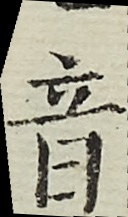音
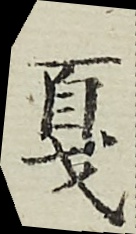戛
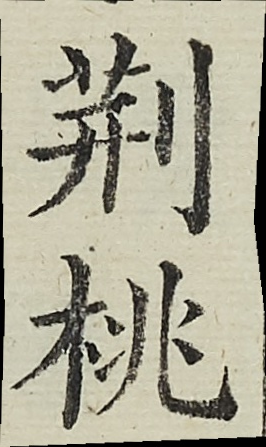荊桃
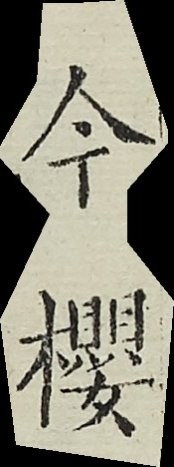今櫻
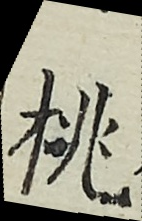桃
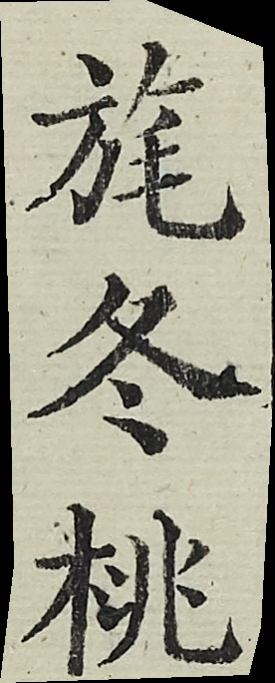旄冬桃
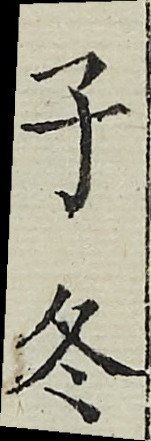子冬
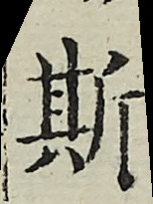斯
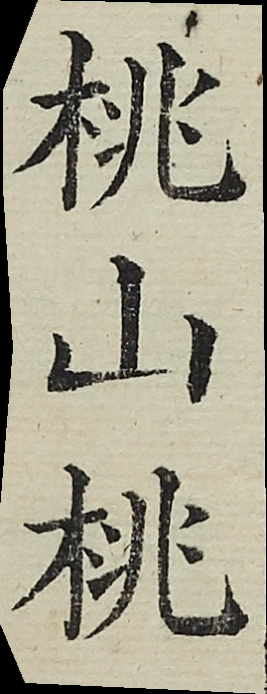桃山桃
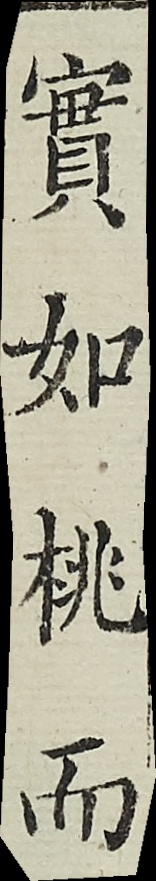實如桃而
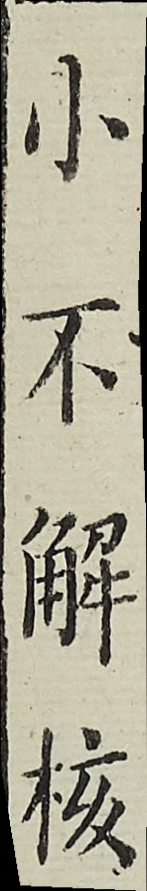小不解核
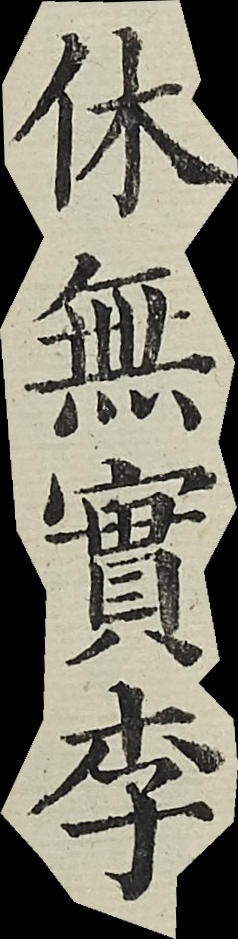休無實李
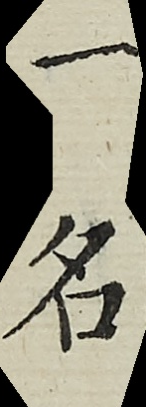一名
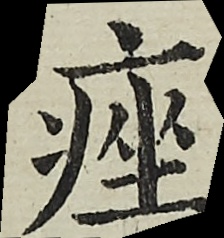痤
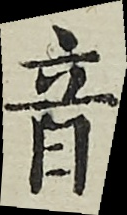音
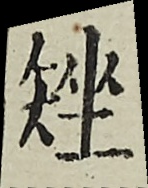矬
